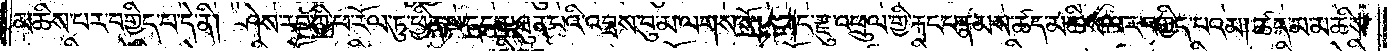མཆིས་པར་བགྱིད་པ་དེ་ནི། ཤེས་རབ་ཀྱི་ཕ་རོལ་ཏུ་ཕྱིན་པ་དང་མཐུན་པའི་འབྲས་བུ་མ་ལགས་སོ། །གང་རྫུ་འཕྲུལ་གྱི་རྐང་པ་རྣམས་ཚད་མཆིས་པར་བགྱིད་པའམ། ཚད་མ་མཆིས་
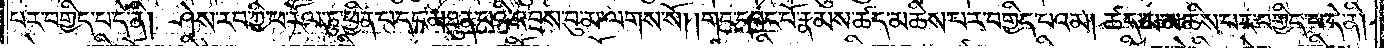པར་བགྱིད་པ་དེ་ནི། ཤེས་རབ་ཀྱི་ཕ་རོལ་ཏུ་ཕྱིན་པ་དང་མཐུན་པའི་འབྲས་བུ་མ་ལགས་སོ། །གང་དབང་པོ་རྣམས་ཚད་མཆིས་པར་བགྱིད་པའམ། ཚད་མ་མཆིས་པར་བགྱིད་པ་དེ་ནི།
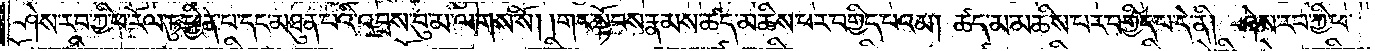ཤེས་རབ་ཀྱི་ཕ་རོལ་ཏུ་ཕྱིན་པ་དང་མཐུན་པའི་འབྲས་བུ་མ་ལགས་སོ། །གང་སྟོབས་རྣམས་ཚད་མཆིས་པར་བགྱིད་པའམ། ཚད་མ་མཆིས་པར་བགྱིད་པ་དེ་ནི། ཤེས་རབ་ཀྱི་ཕ་
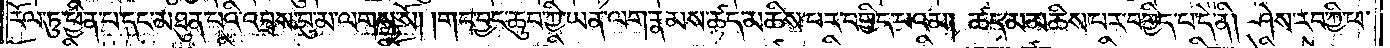རོལ་ཏུ་ཕྱིན་པ་དང་མཐུན་པའི་འབྲས་བུ་མ་ལགས་སོ། །གང་བྱང་ཆུབ་ཀྱི་ཡན་ལག་རྣམས་ཚད་མཆིས་པར་བགྱིད་པའམ། ཚད་མ་མཆིས་པར་བགྱིད་པ་དེ་ནི། ཤེས་རབ་ཀྱི་ཕ་
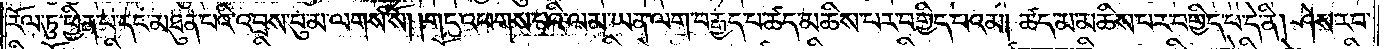རོལ་ཏུ་ཕྱིན་པ་དང་མཐུན་པའི་འབྲས་བུ་མ་ལགས་སོ། །གང་འཕགས་པའི་ལམ་ཡན་ལག་བརྒྱད་པ་ཚད་མཆིས་པར་བགྱིད་པའམ། ཚད་མ་མཆིས་པར་བགྱིད་པ་དེ་ནི། ཤེས་རབ་
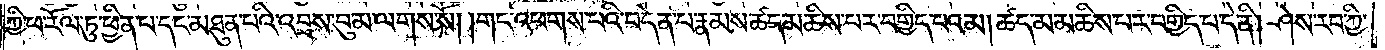ཀྱི་ཕ་རོལ་ཏུ་ཕྱིན་པ་དང་མཐུན་པའི་འབྲས་བུ་མ་ལགས་སོ། །གང་འཕགས་པའི་བདེན་པ་རྣམས་ཚད་མཆིས་པར་བགྱིད་པའམ། ཚད་མ་མཆིས་པར་བགྱིད་པ་དེ་ནི། ཤེས་རབ་ཀྱི་
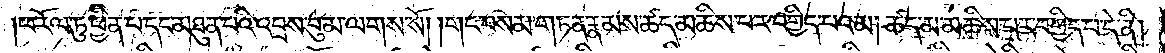ཕ་རོལ་ཏུ་ཕྱིན་པ་དང་མཐུན་པའི་འབྲས་བུ་མ་ལགས་སོ། །གང་བསམ་གཏན་རྣམས་ཚད་མཆིས་པར་བགྱིད་པའམ། ཚད་མ་མཆིས་པར་བགྱིད་པ་དེ་ནི།
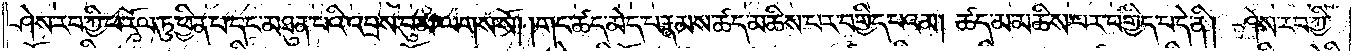ཤེས་རབ་ཀྱི་ཕ་རོལ་ཏུ་ཕྱིན་པ་དང་མཐུན་པའི་འབྲས་བུ་མ་ལགས་སོ། །གང་ཚད་མེད་པ་རྣམས་ཚད་མཆིས་པར་བགྱིད་པའམ། ཚད་མ་མཆིས་པར་བགྱིད་པ་དེ་ནི། ཤེས་རབ་ཀྱི་
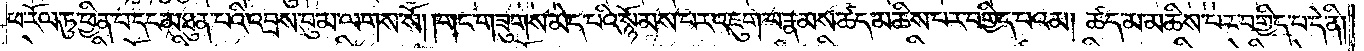ཕ་རོལ་ཏུ་ཕྱིན་པ་དང་མཐུན་པའི་འབྲས་བུ་མ་ལགས་སོ། །གང་གཟུགས་མེད་པའི་སྙོམས་པར་འཇུག་པ་རྣམས་ཚད་མཆིས་པར་བགྱིད་པའམ། ཚད་མ་མཆིས་པར་བགྱིད་པ་དེ་ནི།
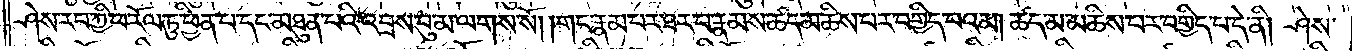ཤེས་རབ་ཀྱི་ཕ་རོལ་ཏུ་ཕྱིན་པ་དང་མཐུན་པའི་འབྲས་བུ་མ་ལགས་སོ། །གང་རྣམ་པར་ཐར་པ་རྣམས་ཚད་མཆིས་པར་བགྱིད་པའམ། ཚད་མ་མཆིས་པར་བགྱིད་པ་དེ་ནི། ཤེས་
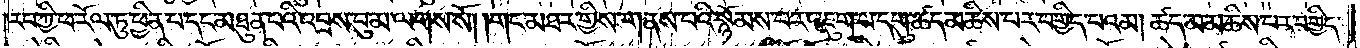རབ་ཀྱི་ཕ་རོལ་ཏུ་ཕྱིན་པ་དང་མཐུན་པའི་འབྲས་བུ་མ་ལགས་སོ། །གང་མཐར་གྱིས་གནས་པའི་སྙོམས་པར་འཇུག་པ་དགུ་ཚད་མཆིས་པར་བགྱིད་པའམ། ཚད་མ་མཆིས་པར་བགྱིད་
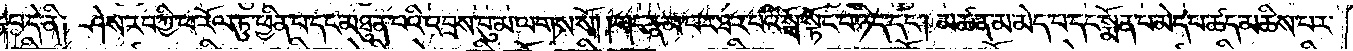པ་དེ་ནི༑ ཤེས་རབ་ཀྱི་ཕ་རོལ་ཏུ་ཕྱིན་པ་དང་མཐུན་པའི་འབྲས་བུ་མ་ལགས་སོ། །གང་རྣམ་པར་ཐར་པའི་སྒོ་སྟོང་པ་ཉིད་དང༌། མཚན་མ་མེད་པ་དང་སྨོན་པ་མེད་པ་ཚད་མཆིས་པར་
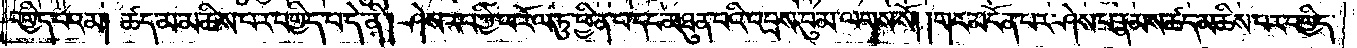བགྱིད་པའམ། ཚད་མ་མཆིས་པར་བགྱིད་པ་དེ་ནི། ཤེས་རབ་ཀྱི་ཕ་རོལ་ཏུ་ཕྱིན་པ་དང་མཐུན་པའི་འབྲས་བུ་མ་ལགས་སོ། །གང་མངོན་པར་ཤེས་པ་རྣམས་ཚད་མཆིས་པར་བགྱིད་
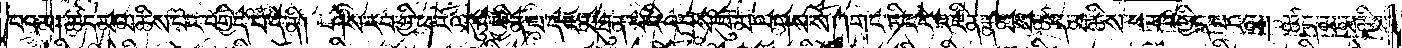པའམ། ཚད་མ་མཆིས་པར་བགྱིད་པ་དེ་ནི། ཤེས་རབ་ཀྱི་ཕ་རོལ་ཏུ་ཕྱིན་པ་དང་མཐུན་པའི་འབྲས་བུ་མ་ལགས་སོ། །གང་ཏིང་ངེ་འཛིན་རྣམས་ཚད་མཆིས་པར་བགྱིད་པའམ། ཚད་མ་མཆིས་
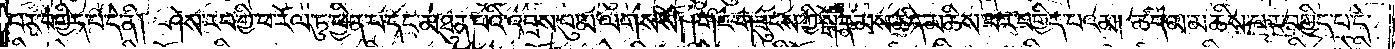པར་བགྱིད་པ་དེ་ནི། ཤེས་རབ་ཀྱི་ཕ་རོལ་ཏུ་ཕྱིན་པ་དང་མཐུན་པའི་འབྲས་བུ་མ་ལགས་སོ། །གང་གཟུངས་ཀྱི་སྒོ་རྣམས་ཚད་མཆིས་པར་བགྱིད་པའམ། ཚད་མ་མཆིས་པར་བགྱིད་པ་དེ་
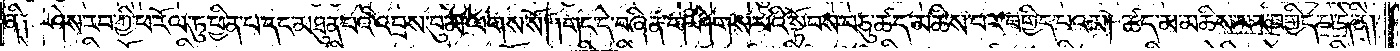ནི༑ ཤེས་རབ་ཀྱི་ཕ་རོལ་ཏུ་ཕྱིན་པ་དང་མཐུན་པའི་འབྲས་བུ་མ་ལགས་སོ། །གང་དེ་བཞིན་གཤེགས་པའི་སྟོབས་བཅུ་ཚད་མཆིས་པར་བགྱིད་པའམ། ཚད་མ་མཆིས་པར་བགྱིད་པ་དེ་ནི།
